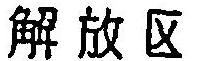解放区
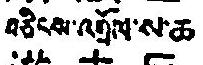བཅིངས་འགྲོལ་ས་ཆ
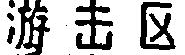游击区
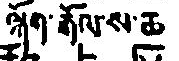ལྐོག་རྒོལ་ས་ཆ
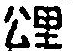公里
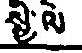སྤྱི་ལེ་
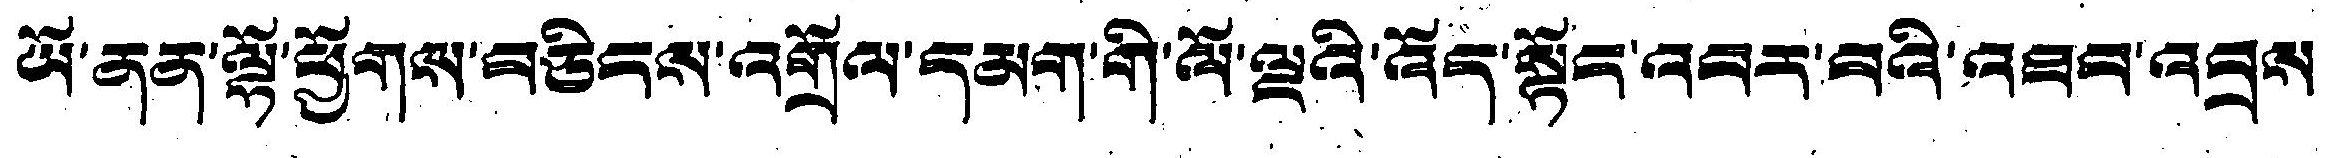ཡོ་ནན་ལྷོ་ཕྱོགས་བཅིངས་འགྲོལ་དམག་གི་ལོ་ལྔའི་འོད་སྟོང་འབར་བའི་འཐབ་འབྲས
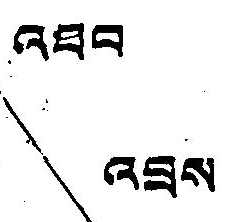འཐབ་འབྲས
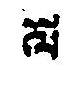ལོ
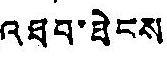འཐབ་ཐེངས
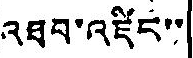འཐབ་འཛིང་་
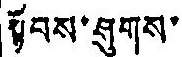སྟོབས་ཤུགས་
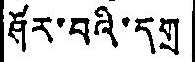ཤོར་བའི་དགྲ
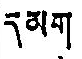དམག
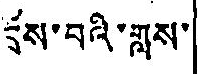དྲོས་པའི་གླས་
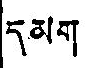དམག
